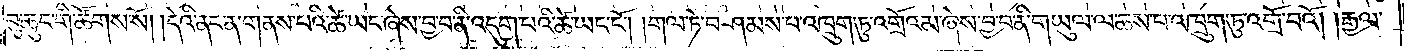བུ་ཆུང་གི་ཚོགས་སོ། །དེའི་ནང་ན་གནས་པའི་ཆེ་ཡང་ཞེས་བྱ་བ་ནི་འདུག་པའི་ཚེ་ཡང་ངོ༌། །གལ་ཏེ་བཤམས་པ་འཁྲུག་ཏུ་འགྲོའམ་ཞེས་བྱ་བ་ནི་གཡུལ་ལ་ཆས་པ་འཁྲུག་ཏུ་འགྲོ་བའོ། །རྒྱལ་
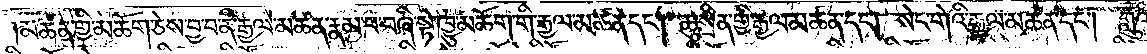མཚན་གྱི་མཆོག་ཅེས་བྱ་བ་ནི་རྒྱལ་མཚན་རྣམ་པ་བཞི་སྟེ་ཁྱུ་མཆོག་གི་རྒྱལ་མཚན་དང༌། ཆུ་སྲིན་གྱི་རྒྱལ་མཚན་དང༌། སེང་གེའི་རྒྱལ་མཚན་དང༌། ཀླུའི་
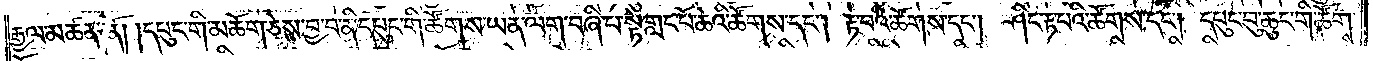རྒྱལ་མཚན་ནོ། །དཔུང་གི་མཆོག་ཅེས་བྱ་བ་ནི་དཔུང་གི་ཚོགས་ཡན་ལག་བཞི་པ་སྟེ་གླང་པོ་ཆེའི་ཚོགས་དང༌། རྟ་པའི་ཚོགས་དང༌། ཤིང་རྟ་པའི་ཚོགས་དང༌། དཔུང་བུ་ཆུང་གི་ཚོགས་
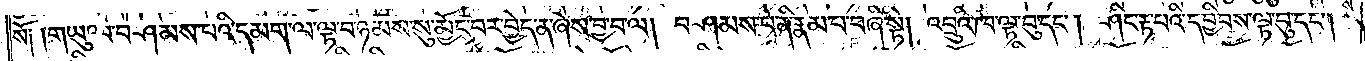སོ༑ །གཡུལ་བཤམས་པའི་དམག་ལ་ལྟ་བ་ཉམས་སུ་མྱོང་བར་བྱེད་ན་ཞེས་བྱ་བ་ལ། བཤམས་པ་ནི་རྣམ་པ་བཞི་སྟེ། འབྲུའི་ཁ་ལྟ་བུ་དང༌། ཤིང་རྟ་པའི་དབྱིབས་ལྟ་བུ་དང༌།
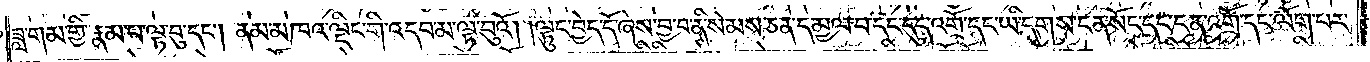ཟླ་གམ་གྱི་རྣམ་པ་ལྟ་བུ་དང༌། ནམ་མཁའ་ལྡིང་གི་འདབ་མ་ལྟ་བུའོ། །ལྟུང་བྱེད་དོ་ཞེས་བྱ་བ་ནི་སེམས་ཅན་དམྱལ་བ་དང་དུད་འགྲོ་དང་ཡི་དྭགས་ངན་སོང་དང་ངན་འགྲོ་དང་ལོག་པར་
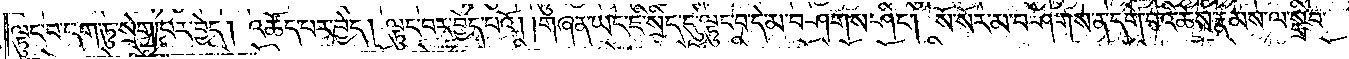ལྟུང་བ་དག་ཏུ་སྲེག་པར་བྱེད། འཚོད་པར་བྱེད། ལྟུང་བར་བྱེད་པའོ། །གཞན་ཡང་ཇི་སྲིད་དུ་ལྟུང་བ་དེ་མ་བཤགས་ཤིང༌། སོ་སོར་མ་བཤགས་ན་དགེ་བའི་ཆོས་རྣམས་ལ་སྒྲིབ་
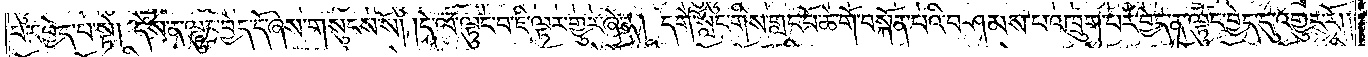པར་བྱེད་པ་སྟེ། དེས་ན་ལྟུང་བྱེད་དོ་ཞེས་གསུངས་སོ། །དེ་ལ་ལྟུང་བ་ཇི་ལྟར་གྱུར་ཞེ་ན། དགེ་སློང་གིས་གླང་པོ་ཆེ་གོ་བསྐོན་པའི་བཤམས་པ་འཁྲུག་པར་བྱེད་ན་ལྟུང་བྱེད་དུ་འགྱུར་རོ༎
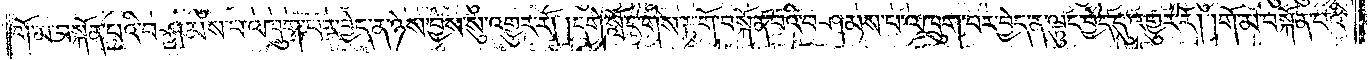གོམ་བསྐོན་པའི་བཤམས་པ་འཁྲུག་པར་བྱེད་ན་ཉེས་བྱས་སུ་འགྱུར་རོ། །དགེ་སློང་གིས་རྟ་གོ་བསྐོན་པའི་བཤམས་པ་འཁྲུག་པར་བྱེད་ན་ལྟུང་བྱེད་དུ་འགྱུར་རོ། །གོ་མ་བསྐོན་པའི་
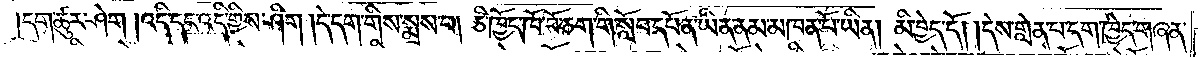།དག་ཚུར་ཤེག །འདི་དང་འདི་གྱིས་ཤིག །དེ་དག་གིས་སྨྲས་པ། ཅི་ཁྱོད་ཁོ་བོ་ཅག་གི་སློབ་དཔོན་ཡིན་ནམ་མཁན་པོ་ཡིན། མི་བྱེད་དོ། །དེས་གླེན་པ་དག་ཁྱེད་གཞན་
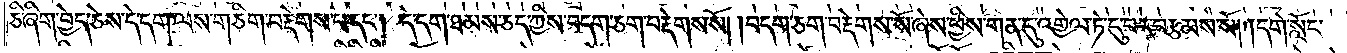ཅི་ཞིག་བྱེད་ཅེས་དེ་དག་ལས་གཅིག་བརྡེགས་པ་དང༌། དེ་དག་ཐམས་ཅད་ཀྱིས་བདག་ཅག་བརྡེགས་སོ། །བདག་ཅག་བརྡེགས་སོ་ཞེས་ཕྱིས་གན་དུ་འགྱེལ་ཏེ་དུ་བར་བརྩམས་སོ། །དགེ་སློང་
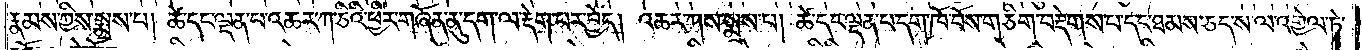རྣམས་ཀྱིས་སྨྲས་པ། ཚེ་དང་ལྡན་པ་འཆར་ཀ་ཅིའི་ཕྱིར་གཞོན་ནུ་དག་ལ་རྡེག་པར་བྱེད། འཆར་ཀས་སྨྲས་པ། ཚེ་དང་ལྡན་པ་དག་ཁོ་བོས་གཅིག་བརྡེགས་པ་དང་ཐམས་ཅད་ས་ལ་འགྱེལ་ཏེ་
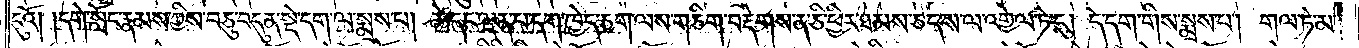དུའོ། །དགེ་སློང་རྣམས་ཀྱིས་བཅུ་བདུན་སྡེ་དག་ལ་སྨྲས་པ། ཚེ་དང་ལྡན་པ་དག་ཁྱེད་ཅག་ལས་གཅིག་བརྡེགས་ན་ཅི་ཕྱིར་ཐམས་ཅད་ས་ལ་འགྱེལ་ཏེ་ངུ༌། དེ་དག་གིས་སྨྲས་པ། གལ་ཏེ་མ་
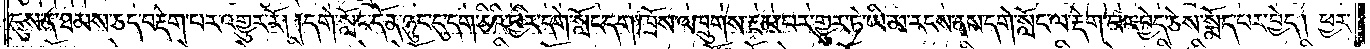ངུས་ན་ཐམས་ཅད་བརྡེག་པར་འགྱུར་རོ། །དགེ་སློང་དོན་ཉུང་ངུ་དག་ཅིའི་ཕྱིར་དགེ་སློང་དག་ཁྲོས་འཁྲུགས་རྔམ་པར་གྱུར་ཏེ་ཡི་མ་རངས་ནས་དགེ་སློང་ལ་རྡེག་པར་བྱེད་ཅེས་སྨོད་པར་བྱེད། ཕྱར་
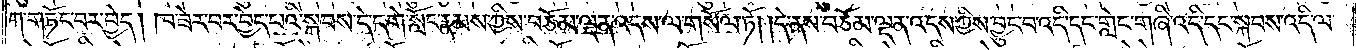ཀ་གཏོང་བར་བྱེད། ཁ་ཟེར་བར་བྱེད་པའི་སྐབས་དེ་དགེ་སློང་རྣམས་ཀྱིས་བཅོམ་ལྡན་འདས་ལ་གསོལ་ཏོ། །དེ་ནས་བཅོམ་ལྡན་འདས་ཀྱིས་བྱུང་བ་འདི་དང་གླེང་གཞི་འདི་དང་སྐབས་འདི་ལ་
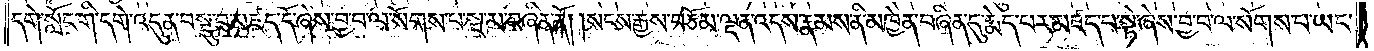དགེ་སློང་གི་དགེ་འདུན་བསྡུ་བ་མཛད་དོ་ཞེས་བྱ་བ་ལ་སོགས་པ་སྔ་མ་བཞིན་ནོ། །སངས་རྒྱས་བཅོམ་ལྡན་འདས་རྣམས་ནི་མཁྱེན་བཞིན་དུ་རྨེད་པར་མཛད་པ་སྟེ་ཞེས་བྱ་བ་ལ་སོགས་པ་ཡང་
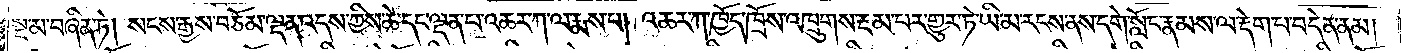སྔ་མ་བཞིན་ཏེ། སངས་རྒྱས་བཅོམ་ལྡན་འདས་ཀྱིས་ཚེ་དང་ལྡན་པ་འཆར་ཀ་ལ་རྨས་པ། འཆར་ཀ་ཁྱོད་ཁྲོས་འཁྲུགས་རྔམ་པར་གྱུར་ཏེ་ཡི་མ་རངས་ནས་དགེ་སློང་རྣམས་ལ་རྡེག་པ་བདེན་ནམ།
